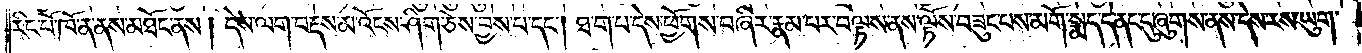རིང་པོ་ཁོ་ན་ནས་མཐོང་ནས། དེས་ལག་བརྡས་མ་འོངས་ཤིག་ཅེས་བྱས་པ་དང༌། ཐ་ག་པ་དེས་ཕྱོགས་བཞིར་རྣམ་པར་བལྟས་ནས་ལྟོས་བཟུང་བས་མགོ་སྨད་དེ་ནང་དུ་ཞུགས་ནས་དེས་རས་ཡུག་
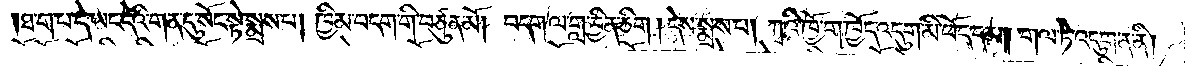ཐ་ག་པ་དེ་ཡང་དེའི་གན་དུ་སོང་སྟེ་སྨྲས་པ། ཁྱིམ་བདག་གི་བཙུན་མོ། བདག་ལ་གླ་བྱིན་ཅིག །དེས་སྨྲས་པ། ཀྭའི་ཁྱོ་ག་ཁྱོད་འདུག་མི་ཕོད་དམ། གལ་ཏེ་འདུག་ན་ནི།
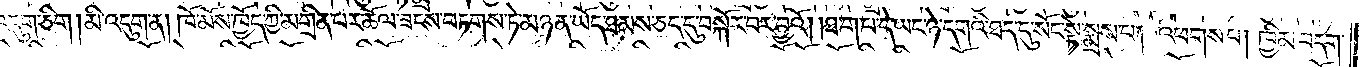འདུག་ཅིག །མི་འདུག་ན། ཁོ་མོས་ཁྱོད་ཀྱི་མགྲིན་པར་ཆོལ་ཟངས་བཏགས་ཏེ་མཉན་ཡོད་ཐམས་ཅད་དུ་བསྐོར་བར་བྱའོ། །ཐ་ག་པ་དེ་ཡང་ཉེ་དགའི་ཐད་དུ་སོང་སྟེ་སྨྲས་པ། འཕགས་པ། ཁྱིམ་བདག་
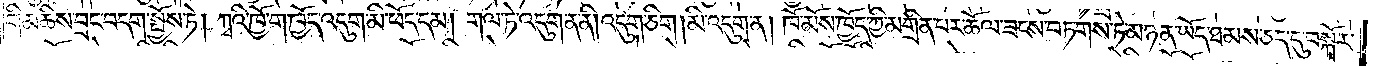གི་མཆིས་བྲང་བདག་སྤྱོས་ཏེ། ཀྭའི་ཁྱོ་ག་ཁྱོད་འདུག་མི་ཕོད་དམ། གལ་ཏེ་འདུག་ན་ནི། འདུག་ཅིག །མི་འདུག་ན། ཁོ་མོས་ཁྱོད་ཀྱི་མགྲིན་པར་ཆོལ་ཟངས་བཏགས་ཏེ་མཉན་ཡོད་ཐམས་ཅད་དུ་བསྐོར་
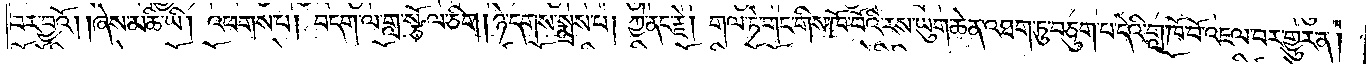བར་བྱའོ། །ཞེས་མཆི་ཡི། འཕགས་པ། བདག་ལ་གླ་སྩོལ་ཅིག །ཉེ་དགས་སྨྲས་པ། ཀྱེ་ནང་རྗེ། གལ་ཏེ་གང་གིས་ཁོ་བོའི་རས་ཡུག་ཆེན་འཐག་ཏུ་བཅུག་པ་དེའི་གླ་ཁོ་བོ་འཇལ་བར་གྱུར་ན།
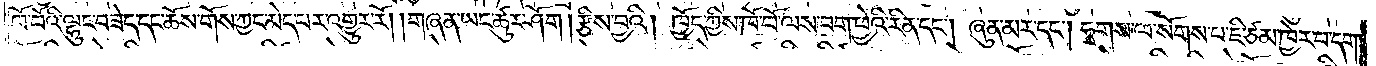ཁོ་བོའི་ལྷུང་བཟེད་དང་ཆོས་གོས་ཀྱང་མེད་པར་འགྱུར་རོ། །གཞན་ཡང་ཚུར་ཤོག །རྩིས་བྱའི། ཁྱོད་ཀྱིས་ཁོ་བོ་ལས་བག་ཕྱེའི་རིན་དང༌། ཞུན་མར་དང༌། ཧྭགས་ལ་སོགས་པ་ཇི་ཙམ་ཁྱེར་བ་དག་
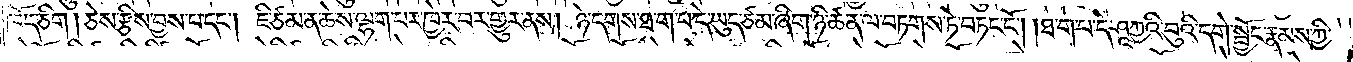ཁོད་ཅིག །ཅེས་རྩིས་བྱས་པ་དང༌། ཇི་ཙམ་ན་ཆེས་ལྷག་པར་ཁྱེར་བར་གྱུར་ནས། ཉེ་དགས་ཐ་ག་པ་དེ་ཡུད་ཙམ་ཞིག་ཉི་ཚན་ལ་བཏགས་ཏེ་བཏང་ངོ༌། །ཐ་ག་པ་དེ་ཤཱཀྱའི་བུའི་དགེ་སྦྱོང་རྣམས་ཀྱི་
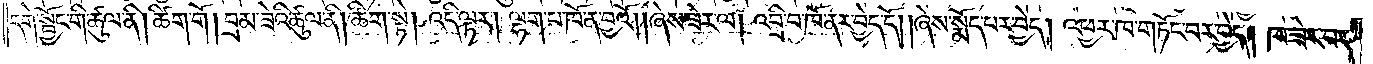དགེ་སྦྱོང་གི་ཚུལ་ནི། ཚིག་གོ། བྲམ་ཟེའི་ཚུལ་ནི། ཚིག་སྟེ། འདི་ལྟར། ལྷག་པ་ཁོ་ན་བྱའོ། །ཞེས་ཟེར་ལ། འབྲི་བ་ཁོ་ནར་བྱེད་དོ། །ཞེས་སྨོད་པར་བྱེད། འཕྱར་ཁ་གཏོང་བར་བྱེད། ཁ་ཟེར་བར་
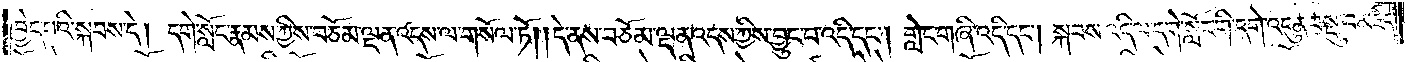བྱེད་པའི་སྐབས་དེ། དགེ་སློང་རྣམས་ཀྱིས་བཅོམ་ལྡན་འདས་ལ་གསོལ་ཏོ། །དེ་ནས་བཅོམ་ལྡན་འདས་ཀྱིས་བྱུང་བ་འདི་དང༌། གླེང་གཞི་འདི་དང༌། སྐབས་འདི་ལ་དགེ་སློང་གི་དགེ་འདུན་བསྡུ་བ་མཛད་
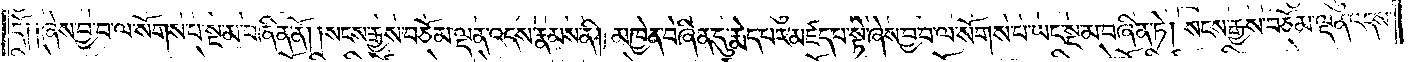དོ༑ ༑ཞེས་བྱ་བ་ལ་སོགས་པ་སྔ་མ་བཞིན་ནོ། །སངས་རྒྱས་བཅོམ་ལྡན་འདས་རྣམས་ནི། མཁྱེན་བཞིན་དུ་རྨེད་པར་མཛད་པ་སྟེ་ཞེས་བྱ་བ་ལ་སོགས་པ་ཡང་སྔ་མ་བཞིན་ཏེ། སངས་རྒྱས་བཅོམ་ལྡན་འདས་
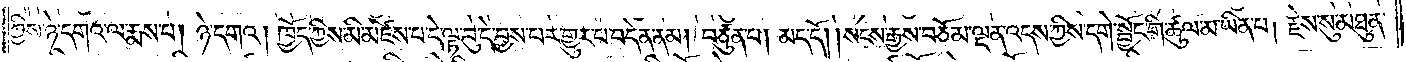ཀྱིས་ཉེ་དགའ་ལ་རྨས་པ། ཉེ་དགའ། ཁྱོད་ཀྱིས་མི་མཛེས་པ་དེ་ལྟ་བུ་དེ་བྱས་པར་གྱུར་པ་བདེན་ནམ། བཙུན་པ། མད་དོ། །སངས་རྒྱས་བཅོམ་ལྡན་འདས་ཀྱིས་དགེ་སྦྱོང་གི་ཚུལ་མ་ཡིན་པ། རྗེས་སུ་མཐུན་
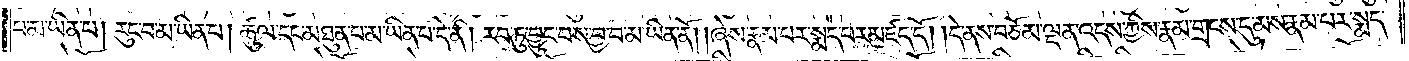པ་མ་ཡིན་པ། རུང་བ་མ་ཡིན་པ། ཚུལ་དང་མཐུན་པ་མ་ཡིན་པ་དེ་ནི། རབ་ཏུ་བྱུང་བས་བྱ་བ་མ་ཡིན་ནོ། །ཞེས་རྣམ་པར་སྨད་པར་མཛད་དོ། །དེ་ནས་བཅོམ་ལྡན་འདས་ཀྱིས་རྣམ་གྲངས་དུ་མས་རྣམ་པར་སྨད་
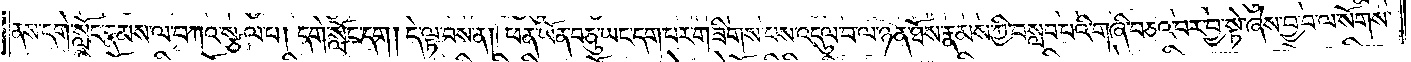ནས་དགེ་སློང་རྣམས་ལ་བཀའ་སྩལ་པ། དགེ་སློང་དག །དེ་ལྟ་བས་ན། ཕན་ཡོན་བཅུ་ཡང་དག་པར་གཟིགས་པས་འདུལ་བ་ལ་ཉན་ཐོས་རྣམས་ཀྱི་བསླབ་པའི་གཞི་བཅའ་བར་བྱ་སྟེ་ཞེས་བྱ་བ་ལ་སོགས་
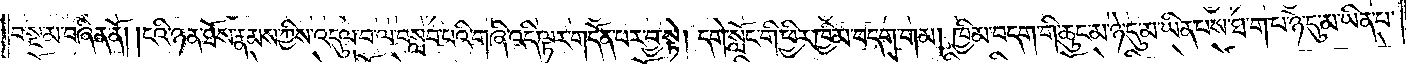པ་སྔ་མ་བཞིན་ནོ། །ངའི་ཉན་ཐོས་རྣམས་ཀྱིས་འདུལ་བ་ལ་བསླབ་པའི་གཞི་འདི་ལྟར་གདོན་པར་བྱ་སྟེ། དགེ་སློང་གི་ཕྱིར་ཁྱིམ་བདག་གམ། ཁྱིམ་བདག་གི་ཆུང་མ་ཉེ་དུ་མ་ཡིན་པས་ཐ་ག་པ་ཉེ་དུ་མ་ཡིན་པ་
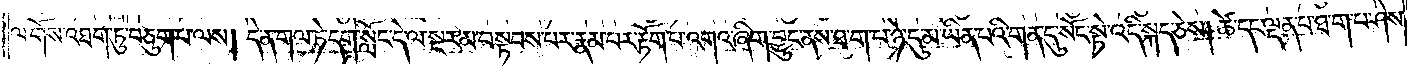ལ་གོས་འཐག་ཏུ་བཅུག་པ་ལས། དེ་ན་གལ་ཏེ་དགེ་སློང་དེ་ལ་སྔར་མ་བསྟབས་པར་རྣམ་པར་རྟོག་པ་འགའ་ཞིག་བྱུང་ནས་ཐ་ག་པ་ཉེ་དུ་མ་ཡིན་པའི་གན་དུ་སོང་སྟེ་འདི་སྐད་ཅེས། ཚེ་དང་ལྡན་པ་ཐ་ག་པ་ཤེས་
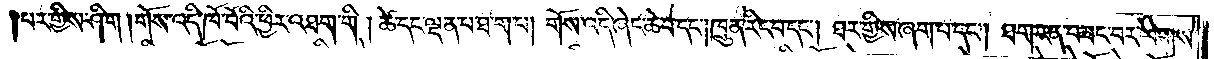པར་གྱིས་ཤིག །གོས་འདི་ཁོ་བོའི་ཕྱིར་འཐག་གི །ཚེ་དང་ལྡན་པ་ཐ་ག་པ། གོས་འདི་ཞེང་ཆེ་བ་དང༌། ཁྲུན་རིང་བ་དང༌། ཐར་གྱིས་ཞག་པ་དང༌། ཐག་རན་བཟང་བར་ལེགས་
